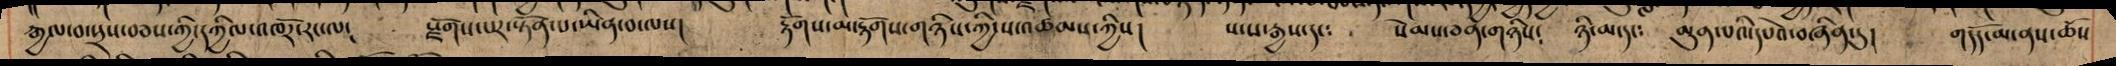རྒྱལ་བ་སྲས་བཅས་ཀྱི་དཀྱིལ་འཁོར་རང་ལ། སྫོགས་པར་སྟོན་པ་ཡིན་བ་ལས། རྟོགས་མ་རྟོགས་གཉིས་ཀྱི་ས་འཚམས་ཀྱིས། སངས་རྒྱས་དང༴ སེམས་ཅན་གཉིས༴ ཉི་མ་དང༴ མུན་པའི་དཔེའ་བཞིན་དུ། གདོད་མ་ནས་ཆོས
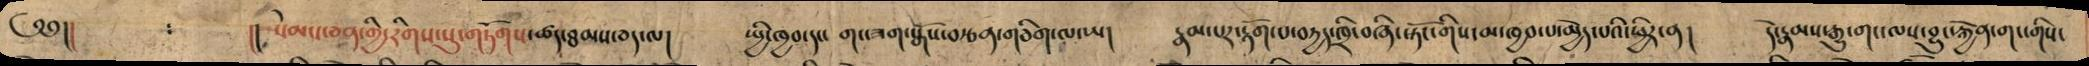༄༅།། །། སེམས་ཅན་གྱི་རིགས་སུ་གཏོགས་ཚད་ཐམས་ཅད་ལ། སྤྱི་ཁྱབ་དང་ གང་ཟག་སྒོས་བརྩན་གཅིག་ལ་ཡ། རྣམ་པར་རྟོག་པ་བརྱད་ཁྲི་བཞི་སྟོང་གིས་མ་ཁྱབ་པ་མྱེད་པའི་ཕྱིར་ན། དེ་རྣམས་རྒྱུ་གང་ལས་བྱུང་རྐྱེན་གང་གིས་
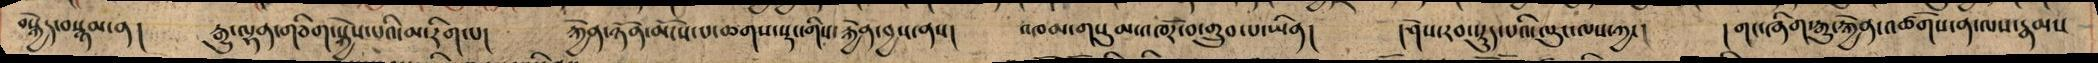བསྐྱེད་བསྙམ་ན། རྒྱུ་ལྷན་གཅིག་སྐྱེས་པའི་མ་རིག་པ། རྐྱེན་ཉོན་མོངས་པ་ཆགས་སྡང་གིས་རྐྱེན་བྱས་ནས། འཁམ་གསུམ་འཁོར་བ་གྲུབ་པ་ཡིན། །ཤེས་རབ་སྡུད་པའི་ལུང་ལས་ཀྱང། །གང་ཞིག་རྒྱུ་རྐྱེན་འཚོགས་ན་ལས་རྣམས
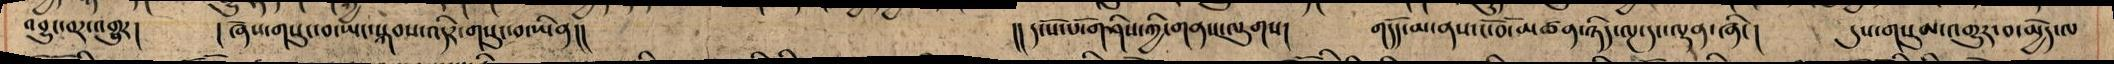འབྱུང་བར་འགྱུར། །ཞེས་གསུང་བ་ཡང་སྐབས་འདིར་གསུང་བ་ཡིན།། །།དངོས་པོ་གཤིས་ཀྱི་གནས་ལུགས། གདོད་མ་ནས་ངོ་བོ་མཚན་ཉིད་ལྔ་དང་ལྡན་ཞིང། དུས་གསུམ་འགྱུར་བ་མྱེད་ལ
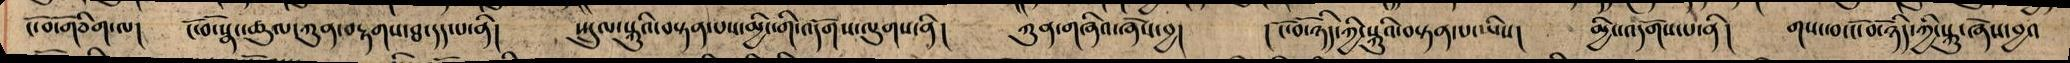ངོ་བོ་གཅིག་ལ། ངོ་བོ་སྣང་ཚུལ་ཀུན་བརྟགས་ཐ དད་པ་ནི། སྤྲུལ་སྐུའི་བསྟན་པས་མྱིང་གོ་འདོགས་ལུགས་ནི། ཀུན་གཞིའ་ཞེས་བྱ། །ངོ་བོ་ཉིད་ཀྱི་སྐུའི་བསྟན་པ་ཡིས། མྱིང་འདོགས་པ་ནི། གསང་བ་ངོ་བོ་ཉིད་ཀྱི་སྐུ་ཞེས་བྱའ
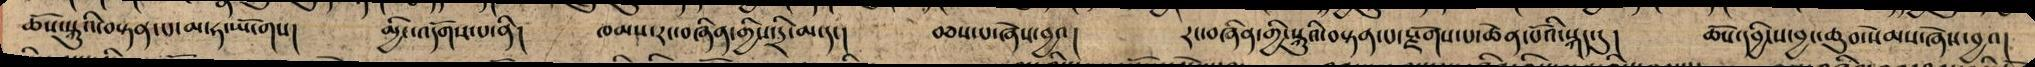ཆོས་སྐུའི་བསྟན་པ་མ་ཧ་ཡོ་གས། མྱིང་འདོགས་པ་ནི། ཁམས་རང་བཞིན་གྱིས་དྲི་མ་དང། བཅས་པ་ཞེས་བྱའ། རང་བཞིན་གྱི་སྐུའི་བསྟན་པ་སྫོགས་པ་ཆེན་པོའི་སྐད་དུ། ཆོས་དབྱིངས་བྱང་ཆུབ་སེམས་ཞེས་བྱའ།
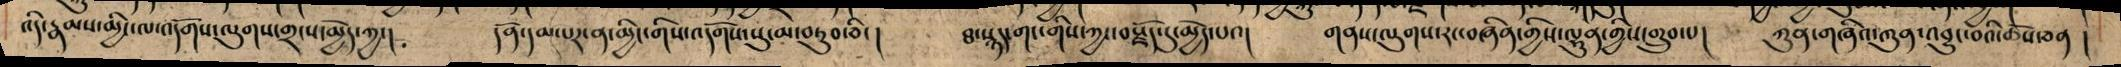འདི་རྣམས་མྱིང་ལ་འདོགས་ལུགས་གྲངས་མྱེད་ཀྱང། དོན་དམ་པར་ན་མྱིང་གིས་འདོགས་སུ་མ་བཏུབ་ཅིང། ཐ་སྙད་གང་གིས་ཀྱང་བརྗོད་དུ་མྱེད་པའ། གནས་ལུགས་རང་བཞིན་གྱིས་ལྷུན་གྱིས་གྲུབ་པ། ཀུན་གཞིའ་ཀུན་འབྱུང་བའི་ཆོས་ཅན།
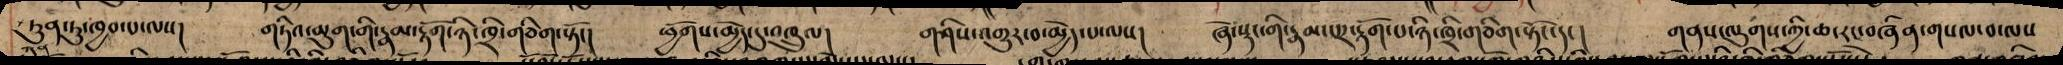ཏུན་ཏུ་ཁྱབ་པ་ལས། གཏིའ་མུག་གི་རྣམ་རྟོག་ཉི་ཁྲི་གཅིག་སྟོང། ཕྱོགས་མྱེད་དུ་འཁྲུལ། གཤིས་འགྱུར་བ་མྱེད་པ་ལས། ཞེ་སྡང་གི་རྣམ་པར་རྟོག་པ་ཉི་ཁྲི་གཅིག་སྟོང་དང། གནས་ལུགས་ཀྱི་ཆ་རང་བཞིན་གསལ་བ་ལས
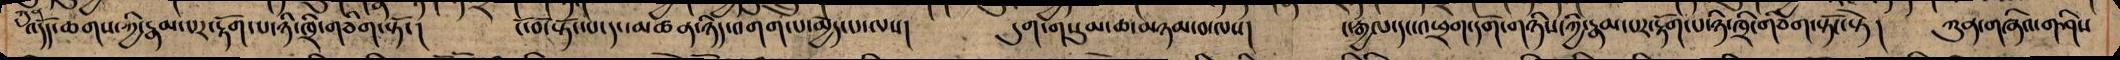འདོད་ཆགས་ཀྱི་རྣམ་པར་རྟོག་པ་ཉི་ཁྲི་གཅིག་སྟོང། ངོ་བོ་སྟོང་པ་དང་མཚན་ཉིད་འགག་པ་མྱེད་པ་ལས། དུག་གསུམ་ཆ་མཉམ་བ་ལས། ང་རྒྱལ་དང་འཕྲག་དོག་གཉིས་ཀྱི་རྣམ་པར་རྟོག་པ་ཉི་ཁྲི་གཅིག་སྟོང་སྟེ། ཀུན་གཞིའ་གཤིས
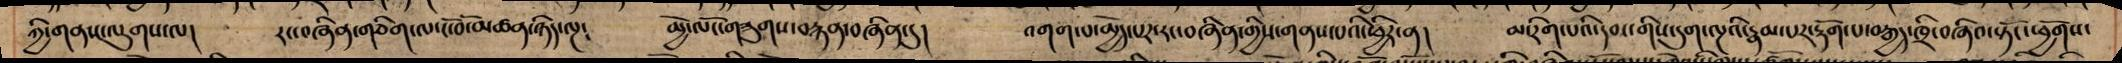ཀྱི་གནས་ལུགས་ལ། རང་བཞིན་གཅིག་ལ་ངོ་བོ་མཚན་ཉིད་ལྔ༴ མྱེ་ལོང་གཟུགས་བརྙན་བཞིན་དུ། འགག་པ་མྱེད་པར་རང་བཞིན་གྱིས་གནས་པའི་ཕྱིར་ན། མ་རིག་པའི་དབང་གིས་དུག་ལྔའི་རྣམ་པར་རྟོག་པ་བརྒྱད་ཁྲི་བཞིའ་སྟོང་ཕྱོགས་
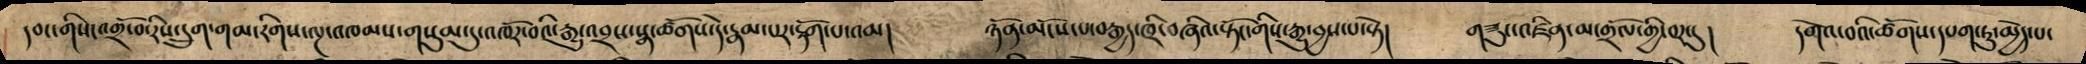དབང་གིས་འགྲོ་བ་རིས་དྲུག་གམ་རིགས་ལྔ་འཁམས་གསུམ་དུ་འཁོར་བའི་རྒྱུ་འབྲས་སྣ་ཚོགས་དེ་རྣམ་པར་རྟོག་པ་འམ། ཉོན་མོངས་པ་བརྒྱད་ཁྲི་བཞིའ་སྟོང་གིས་རྒྱུ་བྱས་པ་སྟེ། གཟུང་འཛིན་མ་གྲོལ་གྱི་བར་དུ། དགེའ་བའི་ཚོགས་དཔག་ཏུ་མྱེད་པ་
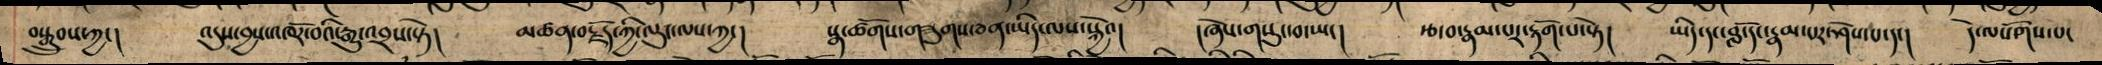བསྒྲུབས་ཀྱང། འདུས་བྱས་འཁོར་བའི་རྒྱུ་འབྲས་སྟེ། མཚན་བརྗོད་ཀྱི་ལུང་ལས་ཀྱང། སྣ་ཚོགས་གཟུགས་ཅན་ཡིད་ལས་སྐྱེའ། །ཞེས་གསུང་བ་ཡང། རྩ་བ་རྣམ་པར་རྟོག་པ་སྟེ། ཡིད་དང་བློ་དང་རྣམ་པར་ཤེས་པ་དང། དེ་ལསོགས་པ་
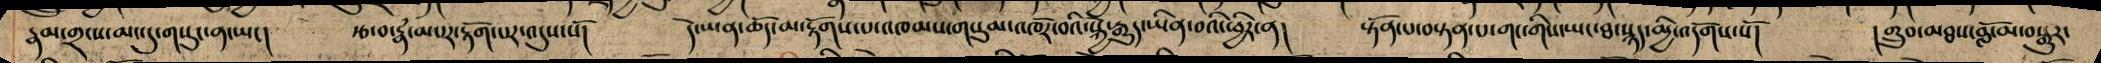རྣམ་གྲངས་མང་དུ་གསུང་ན་ཡང། རྩ་བ་རྣམ་པར་རྟོག་པར་འདུས་སོ། དེ་ཡན་ཆོད་མ་རྟོགས་པ་འཁམས་གསུམ་འཁོར་བའི་རྒྱུད་ཡིན་བའི་ཕྱིར་ན། སྟོན་པ་བསྟན་པ་གང་གིས་ཡང་ཐ་སྙད་མྱི་འདོགས་སོ། །གྲུབ་མཐས་བློ་མ་བསྒྱུར་
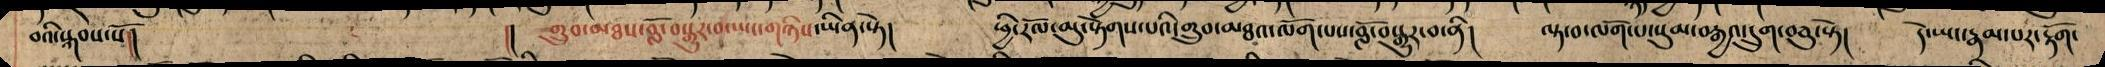བའི་སྐབས་སོ།། །། གྲུབ་མཐས་བློ་བསྒྱུར་བ་ཡང་གཉིས་ཡིན་སྟེ། ཕྱི་རོལ་མུ་སྟེགས་པའི་གྲུབ་མཐའ་ལོག་པས་བློ་བསྒྱུར་བ་ནི། ལྟ་བ་ལོག་པ་སུམ་བརྒྱའ་དྲུག་བཅུ་སྟེ། དེ་ཡང་རྣམ་པར་རྟོག་
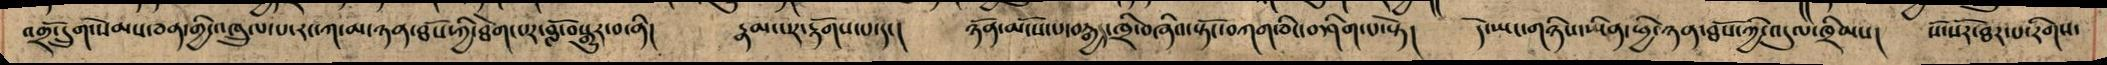འགྲོ་དྲུག་སེམས་ཅན་གྱི་འཁྲུལ་པ་རང་ཀ་མ་ཉན་ཐོས་ཀྱི་ཐེག་པར་བློ་བསྒྱུར་བ་ནི། རྣམ་པར་རྟོགས་པ་དང། ཉོན་མོངས་པ་བརྒྱད་ཁྲི་བཞིའ་སྟོང་བཀག་ཅིང་བཤིག་པ་སྟེ། དེ་ཡང་གཉིས་ཡིན་པྱི་ཉན་ཐོས་ཀྱི་འདུལ་ཁྲིམས། སོ་སོར་ཐར་པ་རིགས་
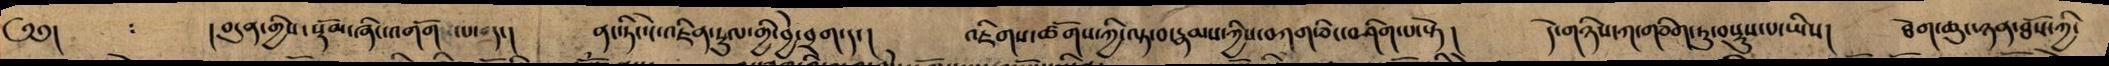༄༅། །བདུན་གྱིས་སྡོམ་ཞིང་འགོག་པ་དང། ནང་ཏིང་ངེ་འཛིན་རྡུལ་གྱི་བྱེ་བྲག་དང། འཇིག་ཚོགས་ཀྱི་ལྟ་བ་རྣམས་ཀྱིས་བཀག་ཅིང་བཤིག་པ་སྟེ། དེ་གཉིས་ལ་གཅིག་ཏུ་བསྡུས་པ་ཡིས། ཐེག་ཆུང་ཉན་ཐོས་ཀྱི་
